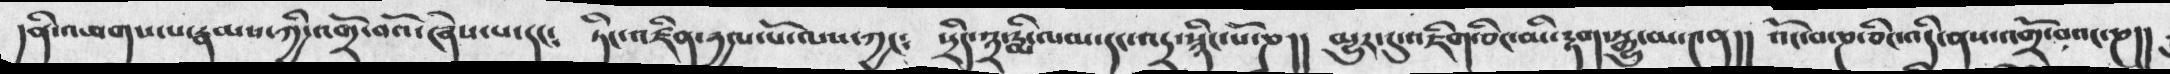།ནི་འཕགས་པ་རྣམས་ཀྱི་འགྲོ་བའོ་ཞེས་པ་དང༴ ཏིང་འཛིན་དྱལ་པོ་ལས་ཀྱང༴ སྲིད་༣་རྨི་ལམ་དང་འདྲ་སྙིང་པོ་ཎ།། མྱུར་དུ་འཇིག་ཅིང་མི་རྟག་སྒྱུ་མ་༤ན།། འོང་བ་ཎ་ཅིང་འདི་ནས་འགྲོ་བའང་ཎ།།
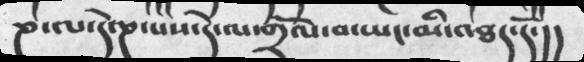ཎ་ལ་དེ་ཎ་པས་དེ་ལ་གྲོལ་བ་ཡང་མི་འཐད་དོ་།།
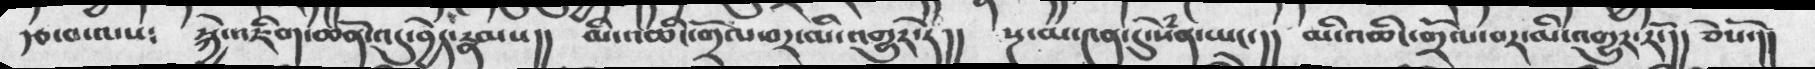རྩ་བ་ལས༴  སྐྱེ་འཇིག་ཆོན་འདུ་བྱེད་རྣམས།།  མི་འཆིང་གྲོལ་བར་མི་འགྱུར་ཏེ།།  སྔ་མ་༤ན་དུ་སེཾན་ཡང་།།  མི་འཆིང་གྲོལ་བར་མི་འགྱུར་རོ་།། ཅེསོ་།།
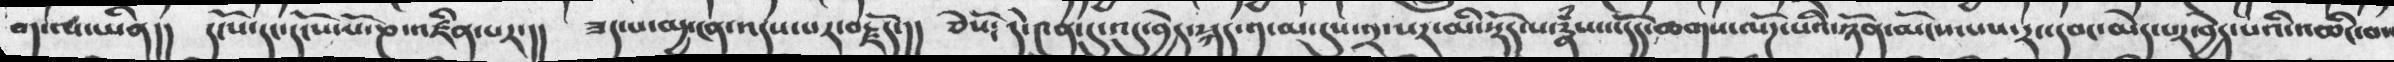བད་ལ་ཡིན།།  དངོས་དང་དངོས་པོ་ཎ་འཛིན་པར་།།  ཟད་པ་མྱ་ངན་འདས་པར་བརྗོད་།།  ཅེསོ༴ དེ་༤ན་དུ་འདུ་བྱེད་སྐད་༡་མ་དུས་༢་པར་མི་སྡོད་པ་རྣཾས་འདོད་ཆགས་ལོཌ་པའི་ཉོན་མོངས་པས་རང་དབང་མེད་པར་བྱེད་པའི་འཆིང་བ་
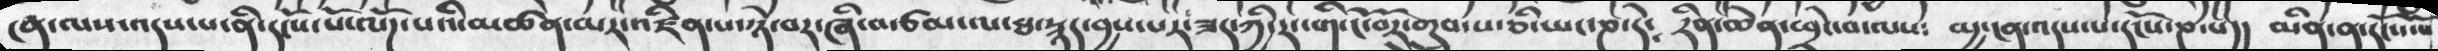ངན་ལས་འདས་པ་ནི་དངོས་པོ་ལོཌ་པའི་མཚན་མར་འཛིན་པ་ཉེ་བར་ཞི་བ་ཙམ་ལ་ཐ་སྙད་བྱས་པར་ཟད་ཀྱི་རང་གི་ངོ་བོར་གྲུབ་པ་ཅི་ཡང་ཎ་དེ༴ རིན་ཆེན་ཕྲེང་བ་ལས༴ མྱ་ངན་འདས་པ་དངོས་ཎ་པ།། མིན་ན་དངོས་པོ
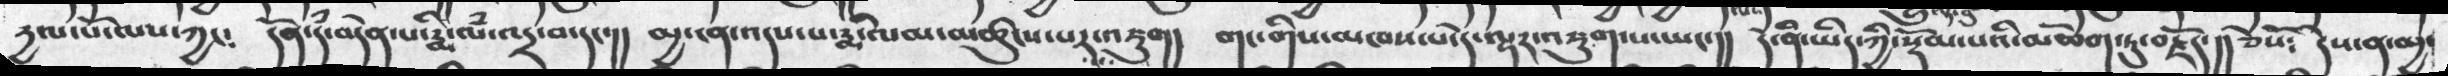དྱལ་པོ་ལས་ཀྱང༴   དོན་དཾ་བདེན་པ་རྨི་ལཾ་འདྲ་བ་དང་།།  མྱ་ངན་འདས་པ་རྨི་ལམ་མཚུངས་པར་འཇུག།   གང་གིས་མཁས་པ་དེ་ལྟར་འཇུག་པ་ཡང་།།  དེ་ནི་ཡིད་ཀྱི་སྡོམ་པའི་མཆོག་ཏུ་བརྗོད་།། ཅེསོ༴   དེས་ན་མྱང
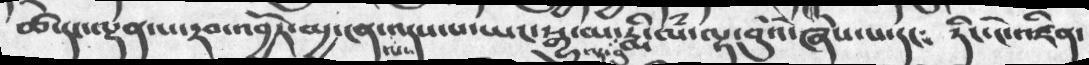ཚེ་དང་ལྡན་པ་རབ་འབྱོར་མྱ་ངན་ལས་འདས་པ་ཡང་སྒྱུ་མ་ལྟ་བུ་རྨི་ལཾ་ལྟ་བུའོ་ཞེས་པ་དང༴   ཏིང་ངེ་འཛིན་
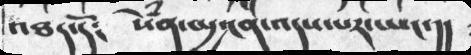འཐད་དོ༴ སེཾན་མྱ་ངན་འདས་པར་ཡང་།།
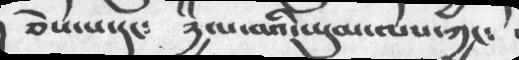ཅེས་པ་དང༴ དྱལ་བའི་ཡུམ་ལས་ཀྱང༴
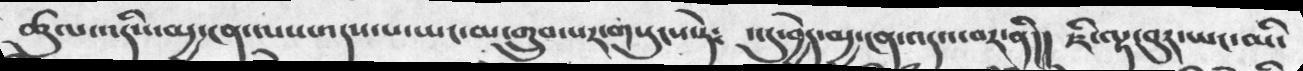ཚུལ་འདིས་མུ་ངན་ལས་འདས་པ་ཡང་མ་གྲུབ་པར་གསུངས་ཏེ༴ འདུ་བྱེད་མྱ་ངན་འདའ་བར་ནི།། ཇི་ལྟར་བུར་ཡང་མི་
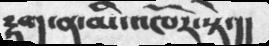རྟག་ན་མི་འཁོར་སྟེ་།།
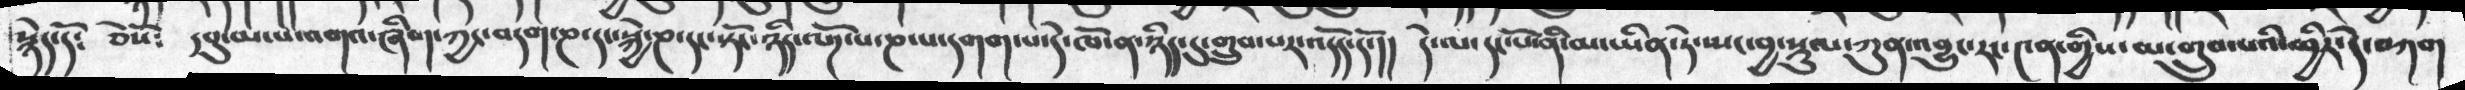སྙེད་དོ༴  ཅེསོ༴  དབུ་མ་པ་འགའ་ཞིག་ཀྱང་བདག་ཎ་དང་སྐྱེ་ཎ་དང་སྟོང་ཉིད་ལོཌ་པ་ཎ་པ་དགག་པ་དེ་ཁོ་ན་ཉིད་དུ་གྲུབ་པར་འདོད་དོ་།།  དེ་ལ་དང་པོ་ནི་མ་ཡིན་ཏེ་ཡང་བྱ་སྡུལ་ཀུན་འབྱུང་རང་༤ན་གྱིས་མ་གྲུབ་པའི་ཕྱིར་དེ་བཀག
